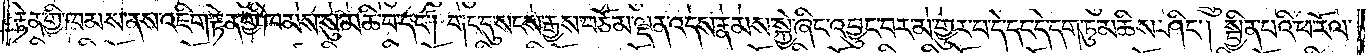རྟེན་གྱི་ཁམས་ནས་འཇིག་རྟེན་གྱི་ཁམས་སུ་མཆི་བ་དང༌། གང་དུ་སངས་རྒྱས་བཅོམ་ལྡན་འདས་རྣམས་སྐྱེ་ཞིང་འབྱུང་བར་མ་གྱུར་པ་དེ་དང་དེ་དག་ཏུ་མཆིས་ཤིང༌། སྦྱིན་པའི་ཕ་རོལ་
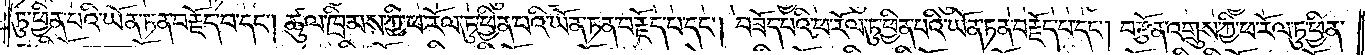ཏུ་ཕྱིན་པའི་ཡོན་ཏན་བརྗོད་པ་དང༌། ཚུལ་ཁྲིམས་ཀྱི་ཕ་རོལ་ཏུ་ཕྱིན་པའི་ཡོན་ཏན་བརྗོད་པ་དང༌། བཟོད་པའི་ཕ་རོལ་ཏུ་ཕྱིན་པའི་ཡོན་ཏན་བརྗོད་པ་དང༌། བརྩོན་འགྲུས་ཀྱི་ཕ་རོལ་ཏུ་ཕྱིན་
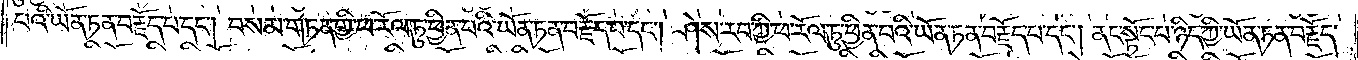པའི་ཡོན་ཏན་བརྗོད་པ་དང༌། བསམ་གཏན་གྱི་ཕ་རོལ་ཏུ་ཕྱིན་པའི་ཡོན་ཏན་བརྗོད་པ་དང༌། ཤེས་རབ་ཀྱི་ཕ་རོལ་ཏུ་ཕྱིན་པའི་ཡོན་ཏན་བརྗོད་པ་དང༌། ནང་སྟོང་པ་ཉིད་ཀྱི་ཡོན་ཏན་བརྗོད་
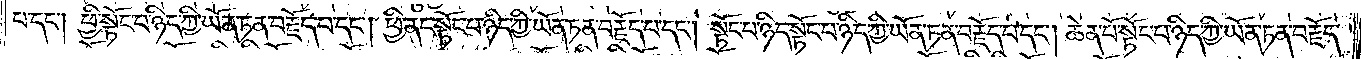པ་དང༌། ཕྱི་སྟོང་པ་ཉིད་ཀྱི་ཡོན་ཏན་བརྗོད་པ་དང༌། ཕྱི་ནང་སྟོང་པ་ཉིད་ཀྱི་ཡོན་ཏན་བརྗོད་པ་དང༌། སྟོང་པ་ཉིད་སྟོང་པ་ཉིད་ཀྱི་ཡོན་ཏན་བརྗོད་པ་དང༌། ཆེན་པོ་སྟོང་པ་ཉིད་ཀྱི་ཡོན་ཏན་བརྗོད་
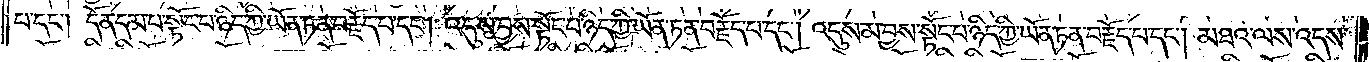པ་དང༌། དོན་དམ་པ་སྟོང་པ་ཉིད་ཀྱི་ཡོན་ཏན་བརྗོད་པ་དང༌། འདུས་བྱས་སྟོང་པ་ཉིད་ཀྱི་ཡོན་ཏན་བརྗོད་པ་དང༌། འདུས་མ་བྱས་སྟོང་པ་ཉིད་ཀྱི་ཡོན་ཏན་བརྗོད་པ་དང༌། མཐའ་ལས་འདས་
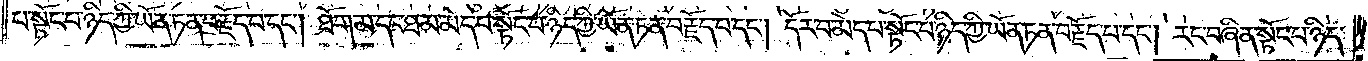པ་སྟོང་པ་ཉིད་ཀྱི་ཡོན་ཏན་བརྗོད་པ་དང༌། ཐོག་མ་དང་ཐ་མ་མེད་པ་སྟོང་པ་ཉིད་ཀྱི་ཡོན་ཏན་བརྗོད་པ་དང༌། དོར་བ་མེད་པ་སྟོང་པ་ཉིད་ཀྱི་ཡོན་ཏན་བརྗོད་པ་དང༌། རང་བཞིན་སྟོང་པ་ཉིད་
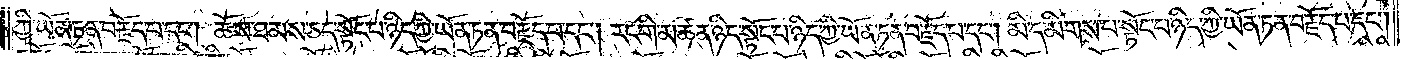ཀྱི་ཡོན་ཏན་བརྗོད་པ་དང༌། ཆོས་ཐམས་ཅད་སྟོང་པ་ཉིད་ཀྱི་ཡོན་ཏན་བརྗོད་པ་དང༌། རང་གི་མཚན་ཉིད་སྟོང་པ་ཉིད་ཀྱི་ཡོན་ཏན་བརྗོད་པ་དང༌། མི་དམིགས་པ་སྟོང་པ་ཉིད་ཀྱི་ཡོན་ཏན་བརྗོད་པ་དང༌།
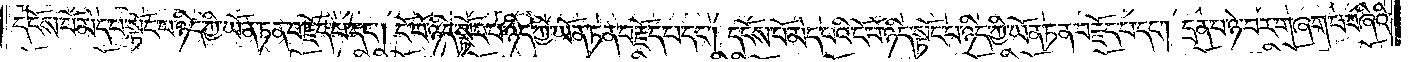དངོས་པོ་མེད་པ་སྟོང་པ་ཉིད་ཀྱི་ཡོན་ཏན་བརྗོད་པ་དང༌། ངོ་བོ་ཉིད་སྟོང་པ་ཉིད་ཀྱི་ཡོན་ཏན་བརྗོད་པ་དང༌། དངོས་པོ་མེད་པའི་ངོ་བོ་ཉིད་སྟོང་པ་ཉིད་ཀྱི་ཡོན་ཏན་བརྗོད་པ་དང༌། དྲན་པ་ཉེ་བར་གཞག་པ་བཞིའི་
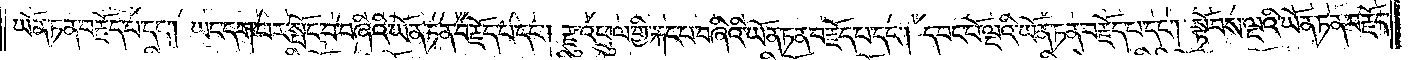ཡོན་ཏན་བརྗོད་པ་དང༌། ཡང་དག་པར་སྤོང་པ་བཞིའི་ཡོན་ཏན་བརྗོད་པ་དང༌། རྫུ་འཕྲུལ་གྱི་རྐང་པ་བཞིའི་ཡོན་ཏན་བརྗོད་པ་དང༌། དབང་པོ་ལྔའི་ཡོན་ཏན་བརྗོད་པ་དང༌། སྟོབས་ལྔའི་ཡོན་ཏན་བརྗོད་
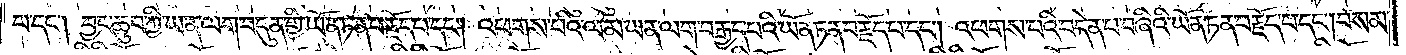པ་དང༌། བྱང་ཆུབ་ཀྱི་ཡན་ལག་བདུན་གྱི་ཡོན་ཏན་བརྗོད་པ་དང༌། འཕགས་པའི་ལམ་ཡན་ལག་བརྒྱད་པའི་ཡོན་ཏན་བརྗོད་པ་དང༌། འཕགས་པའི་བདེན་པ་བཞིའི་ཡོན་ཏན་བརྗོད་པ་དང༌། བསམ་
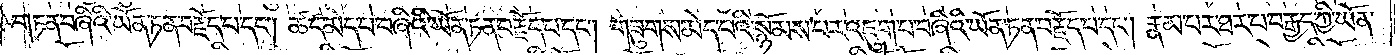གཏན་བཞིའི་ཡོན་ཏན་བརྗོད་པ་དང༌། ཚད་མེད་པ་བཞིའི་ཡོན་ཏན་བརྗོད་པ་དང༌། གཟུགས་མེད་པའི་སྙོམས་པར་འཇུག་པ་བཞིའི་ཡོན་ཏན་བརྗོད་པ་དང༌། རྣམ་པར་ཐར་པ་བརྒྱད་ཀྱི་ཡོན་
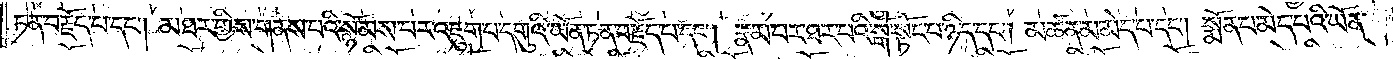ཏན་བརྗོད་པ་དང༌། མཐར་གྱིས་གནས་པའི་སྙོམས་པར་འཇུག་པ་དགུའི་ཡོན་ཏན་བརྗོད་པ་དང༌། རྣམ་པར་ཐར་པའི་སྒོ་སྟོང་པ་ཉིད་དང༌། མཚན་མ་མེད་པ་དང༌། སྨོན་པ་མེད་པའི་ཡོན་
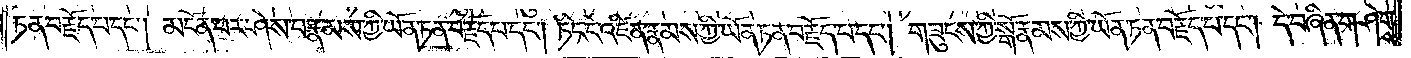ཏན་བརྗོད་པ་དང༌། མངོན་པར་ཤེས་པ་རྣམས་ཀྱི་ཡོན་ཏན་བརྗོད་པ་དང༌། ཏིང་ངེ་འཛིན་རྣམས་ཀྱི་ཡོན་ཏན་བརྗོད་པ་དང༌། གཟུངས་ཀྱི་སྒོ་རྣམས་ཀྱི་ཡོན་ཏན་བརྗོད་པ་དང༌། དེ་བཞིན་གཤེགས་
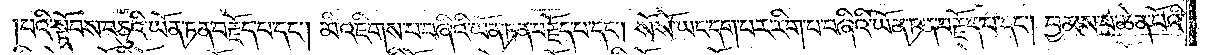པའི་སྟོབས་བཅུའི་ཡོན་ཏན་བརྗོད་པ་དང༌། མི་འཇིགས་པ་བཞིའི་ཡོན་ཏན་བརྗོད་པ་དང༌། སོ་སོ་ཡང་དག་པར་རིག་པ་བཞིའི་ཡོན་ཏན་བརྗོད་པ་དང༌། བྱམས་པ་ཆེན་པོའི་
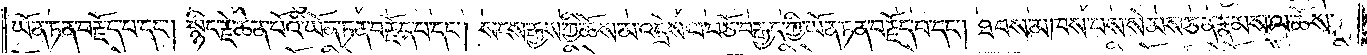ཡོན་ཏན་བརྗོད་པ་དང༌། སྙིང་རྗེ་ཆེན་པོའི་ཡོན་ཏན་བརྗོད་པ་དང༌། སངས་རྒྱས་ཀྱི་ཆོས་མ་འདྲེས་པ་བཅོ་བརྒྱད་ཀྱི་ཡོན་ཏན་བརྗོད་པ་དང༌། ཐབས་མཁས་པས་སེམས་ཅན་རྣམས་ལ་ཆོས་
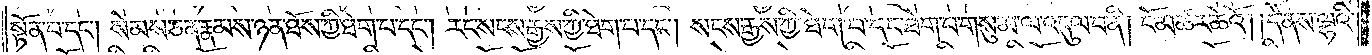སྟོན་པ་དང༌། སེམས་ཅན་རྣམས་ཉན་ཐོས་ཀྱི་ཐེག་པ་དང༌། རང་སངས་རྒྱས་ཀྱི་ཐེག་པ་དང༌། སངས་རྒྱས་ཀྱི་ཐེག་པ་དང་ཐེག་པ་གསུམ་ལ་འདུལ་བ་ནི། ངོ་མཚར་ཆེའོ། །དེ་ནས་ལྷའི་
